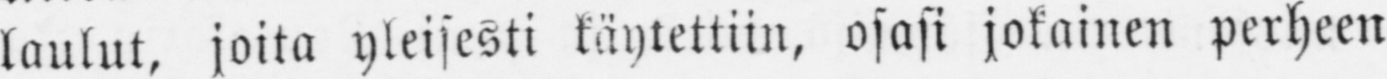laulut, joita yleisesti käytettiin, osasi jokainen perheen
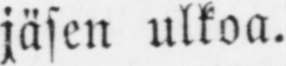jäsen ulkoa.
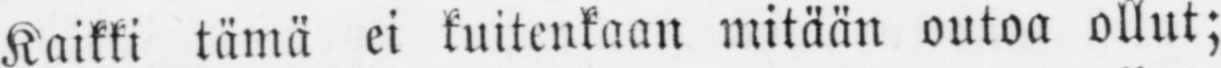Kaikki tämä ei kuitenkaan mitään outoa ollut;
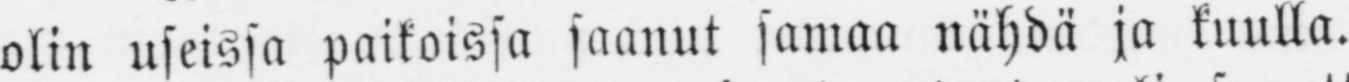olin useissa paikoissa saanut samaa nähdä ja kuulla.
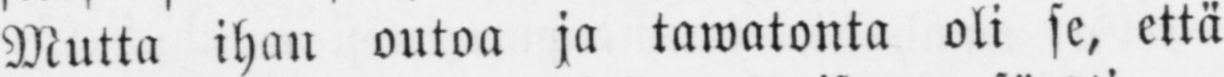Mutta ihan outoa ja tawatonta oli se, että
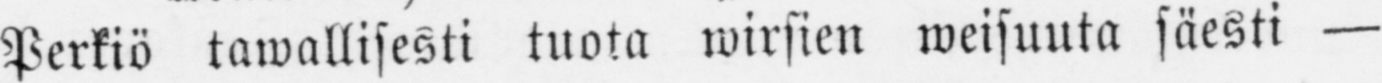Perkiö tawallisesti tuota wirsien weisuuta säesti —
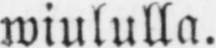wiululla.
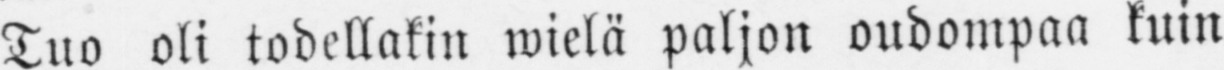Tuo oli todellakin wielä paljon oudompaa kuin
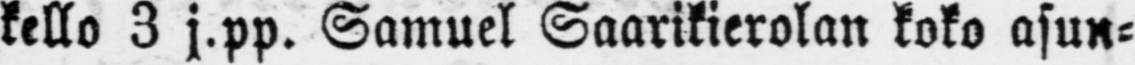kello 3 j.pp. Samuel Saarikierolan koko asun-
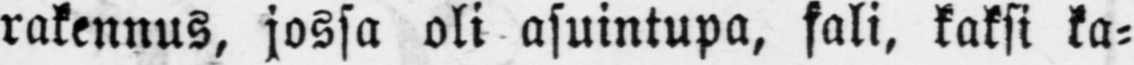rakennus, jossa oli asuintupa, sali, kaksi ka-
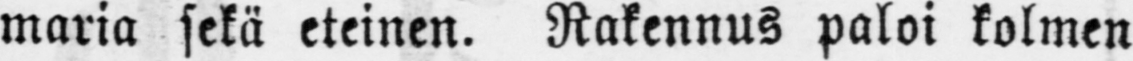maria sekä eteinen. Rakennus paloi kolmen
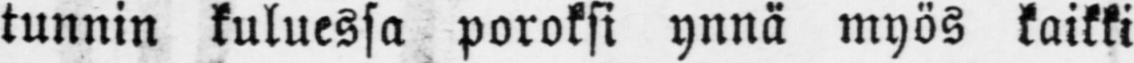tunnin kuluessa poroksi ynnä myös kaikki
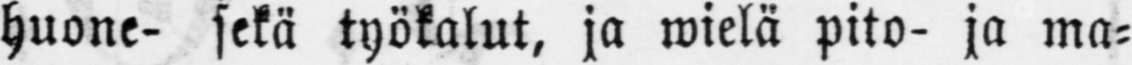huone- sekä työkalut, ja wielä pito- ja ma-
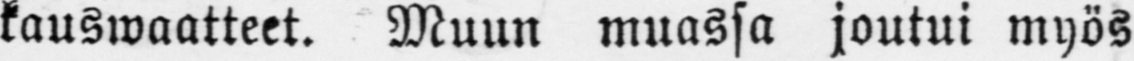kauswaatteet. Muun muassa joutui myös
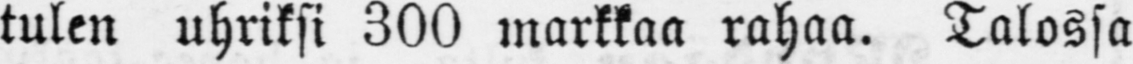tulen uhriksi 300 markkaa rahaa. Talossa
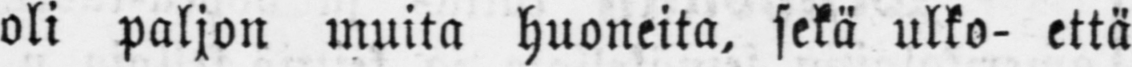oli paljon muita huoneita, sekä ulko- että
